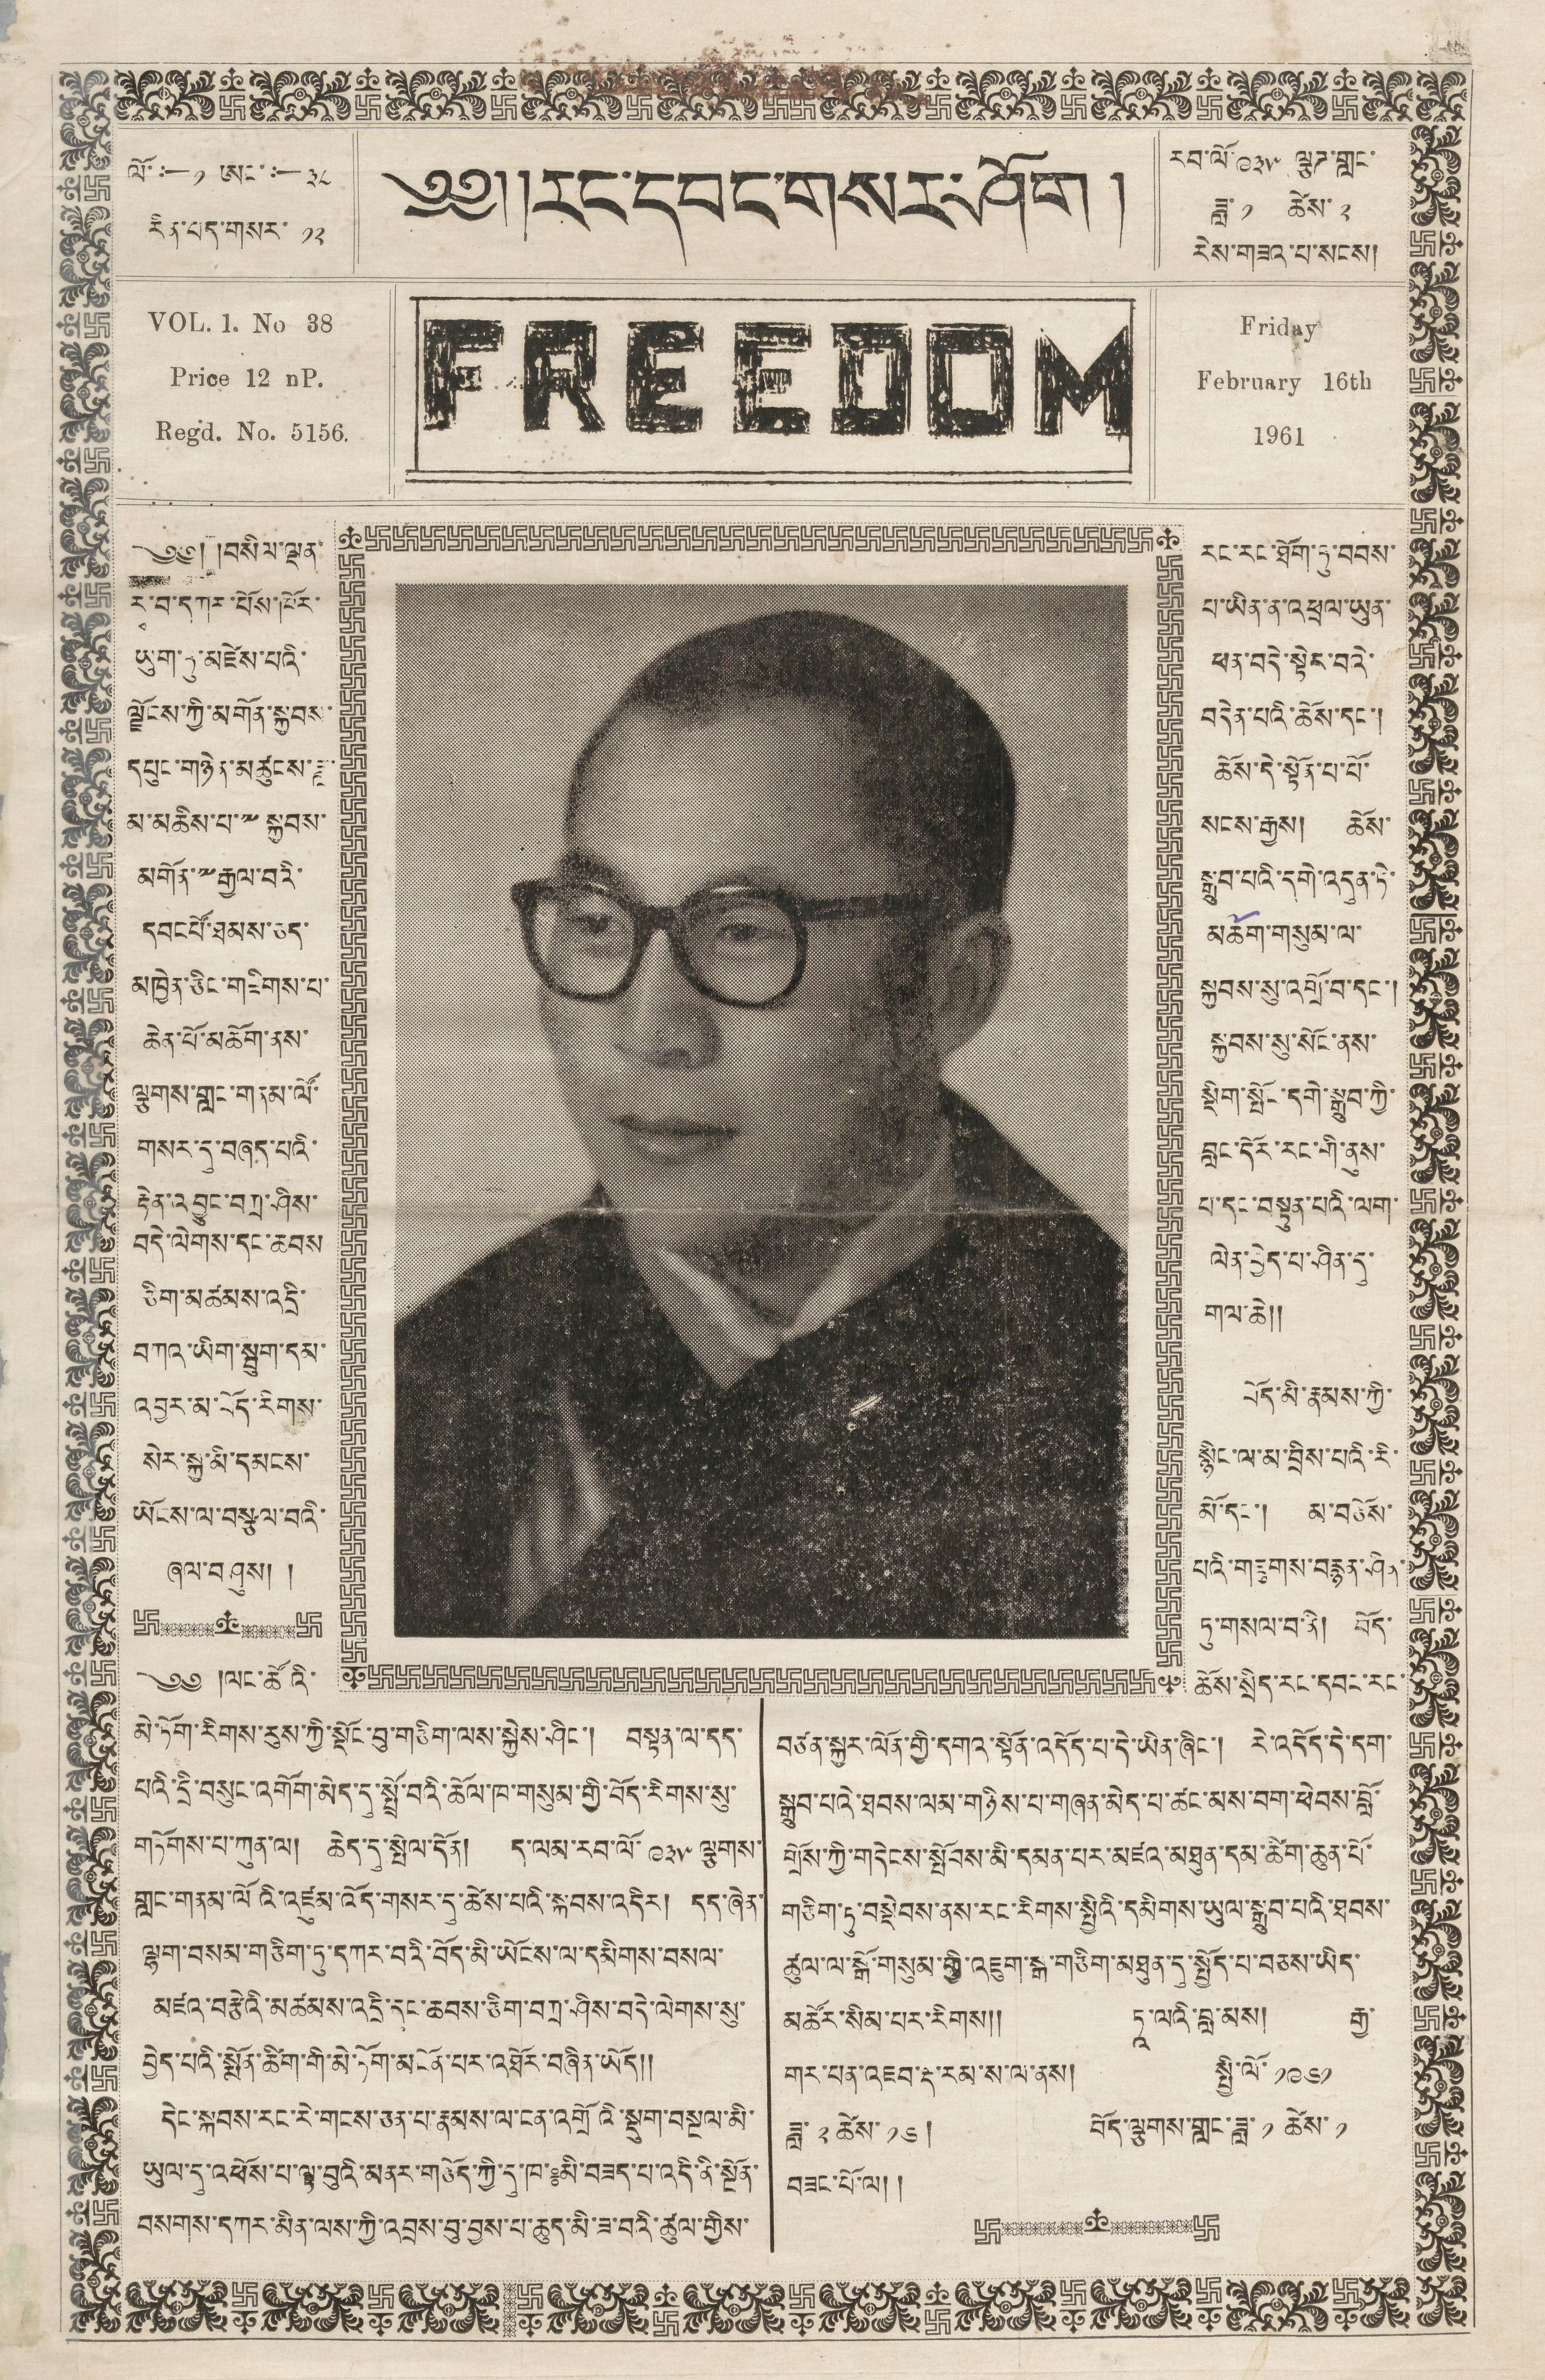༄༅། །རང་དབང་གསར་ཤོག །
ལོ་ :— ༡ ཨང་ :— ༣༨
རིན་པད་གསར་ ༡༢
རབ་ལོ་ ༩༣༥ ལྕཊ་གླང་
ཟླ་ ༡ ཚེས་ ༢
རེས་གཟའ་པ་སངས།
VOL. 1. No 38
Price 12 nP.
Regd. No. 5156
FREEDOM
Friday
February 16th
1961
༄༅། །བསིལ་ལྡན་
རྭ་བ་དཀར་པོས་ཁོར་
ཡུག་ཏུ་མཛེས་པའི་
ལྗོངས་ཀྱི་མགོན་སྐྱབས་
དཔུང་གཉེན་མཚུངས་ཟླ་
མ་མཆིས་པ་༸སྐྱབས་
མགོན་༸རྒྱལ་བའི་
དབངཔོ་ཐམས་ཅད་
མཁྱེན་ཅིང་གཟིགས་པ་
ཆེན་པོ་མཆོག་ནས་
ལྕགས་གླང་གནམ་ལོ་
གསར་དུ་བཞད་པའི་
རྟེན་འབྱུང་བཀྲ་ཤིས་
བདེ་ལེགས་དང་ཆབས་
ཅིག་མཚམས་འདྲི་
བཀའ་ཡིག་སྦུག་དམ་
འབྱར་མ་བོད་རིགས་
སེར་སྐྱ་མི་དམངས་
ཡོངས་ལ་བསྩལ་བའི་
ཞལ་བཤུས། །
༄༅ །ལང་ཚོའི་
མེ་ཏོག་རིགས་རུས་ཀྱི་སྡོང་བུ་གཅིག་ལས་སྐྱེས་ཤིང་། བསྟན་ལ་དད་
པའི་དྲི་བསུང་འགོག་མེད་དུ་སྤྲོ་བའི་ཆོལ་ཁ་གསུམ་གྱི་བོད་རིགས་སུ་
གཏོགས་པ་ཀུན་ལ། ཆེད་དུ་སྤེལ་དོན། ད་ལམ་རབ་ལོ་ ༩༣༥ ལྕགས་
གླང་གནམ་ལོའི་འཛུམ་འོད་གསར་དུ་ཚེས་པའི་སྐབས་འདིར། དད་ཞེན་
ལྷག་བསམ་གཅིག་ཏུ་དཀར་བའི་བོད་མི་ཡོངས་ལ་དམིགས་བསལ་
མཛའ་བརྩེའི་མཚམས་འདྲི་དང་ཆབས་ཅིག་བཀྲ་ཤིས་བདེ་ལེགས་སུ་
བྱེད་པའི་སྨོན་ཚིག་གི་མེ་ཏོག་མངོན་པར་འཐོར་བཞིན་ཡོད།།
དེང་སྐབས་རང་རེ་གངས་ཅན་པ་རྣམས་ལ་ངན་འགྲོའི་སྡུག་བསྔལ་མི་
ཡུལ་འཕོས་པ་ལྟ་བུའི་མནར་གཅོད་ཀྱི་དུ་ཁ་༔མི་བཟད་པ་འདི་ནི་སྔོན་
བསགས་དཀར་མིན་ལས་ཀྱི་འབྲས་བུ་བྱས་པ་ཆུད་མི་ཟ་བའི་ཚུལ་གྱིས་
རང་རང་ཐོག་ཏུ་བབས་
པ་ཡིན་ན་འཕྲལ་ཡུན་
ཕན་བདེ་སྟེར་བའེ་
བདེན་པའི་ཆོས་དང་།
ཆོས་དེ་སྟོན་པ་པོ་
སངས་རྒྱས། ཆོས་
སྒྲུབ་པའི་དགེ་འདུན་ཏེ་
མཆོག་གསུམ་ལ་
སྐྱབས་སུ་འགྲོ་བ་དང་།
སྐྱབས་སུ་སོང་ནས་
སྡིག་སྤོང་དགེ་སྒྲུབ་ཀྱི་
བླང་དོར་རང་གི་ནུས་
པ་དང་བསྟུན་པའི་ལག་
ལེན་བྱེད་པ་ཤིན་དུ་
གལ་ཆེ།།
བོད་མི་རྣམས་ཀྱི་
སྙིང་ལ་མ་བྲིས་པའི་རི་
མོ་དང་། མ་བཅོས་
པའི་གཟུགས་བརྙན་ཤིན་
ཏུ་གསལ་བ་ནི། བོད་
ཆོས་སྲིད་རང་དབང་རང་
བཙན་སྐྱར་ལོན་གྱི་དགའ་སྟོན་འདོད་པ་དེ་ཡིན་ཞིང་། རེ་འདོད་དེ་དག་
སྒྲུབ་པའི་ཐབས་ལམ་གཉིས་པ་གཞན་མེད་པ་ཚང་མས་བག་ཕེབས་ཟློ་
གྲོས་ཀྱི་གདེངས་སྤོབས་མི་དམན་པར་མཛའ་མཐུན་དམ་ཚིག་ཆུན་པོ་
གཅིག་ཏུ་བསྡེབས་ནས་རང་རིགས་སྤྱིའི་དམིགས་ཡུལ་སྒྲུབ་པའི་ཐབས་
ཚུལ་སྒོ་གསུམ་གྱི་འཇུག་སྒ་གཅིག་མཐུན་དུ་སྤྱོད་པ་བཅས་ཡིད་
མཚོར་སིམ་པར་རིགས།། ཏཱ་ལའི་བླ་མས། རྒྱ་
གར་པན་འཇམ་རྡ་རམ་ས་ལ་ནས། སྤྱི་ལོ་ ༡༩༦༡
ཟླ་ ༢ ཚེས་ ༡༦། བོད་ལྕགས་གླང་ཟླ་ ༡ ཚེས་ ༡
བཟང་པོ་ལ། །
